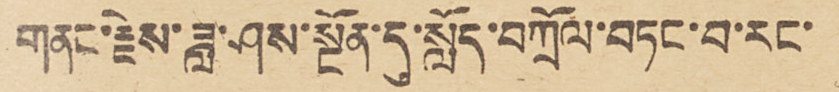གནང་རྗེས་ཟླ་ཤས་སྔོན་དུ་སློད་བཀྲོལ་བཏང་བ་རང་
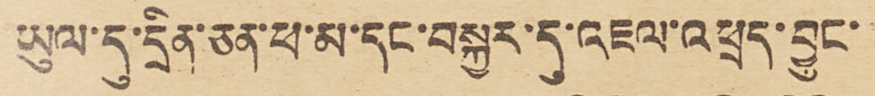ཡུལ་དུ་དྲིན་ཅན་ཕ་མ་དང་བསྐྱར་དུ་འཇལ་འཕྲད་བྱུང་
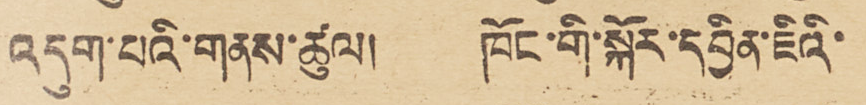འདུག་པའི་གནས་ཚུལ། ཁོང་གི་སྐོར་དབྱིན་ཇིའི་
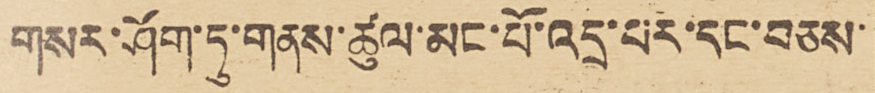གསར་ཤོག་ཏུ་གནས་ཚུལ་མང་པོ་འདྲ་པར་དང་བཅས་
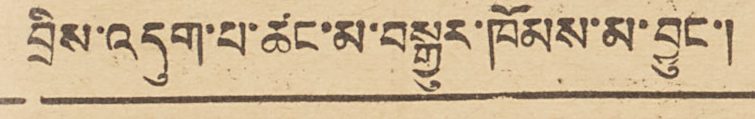བྲིས་འདུག་པ་ཚང་མ་བསྒྱུར་ཁོམས་མ་བྱུང་།
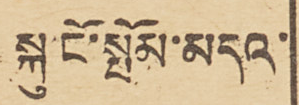སྐུ་ངོ་སྤོམ་མདའ་
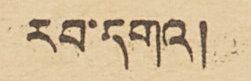རབ་དགའ།
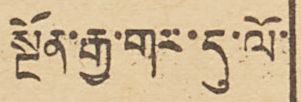སྔོན་རྒྱ་གར་དུ་ལོ་
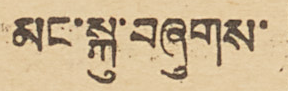མང་སྐུ་བཞུགས་
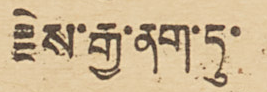རྗེས་རྒྱ་ནག་ཏུ་
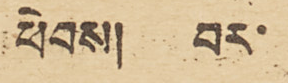ཕེབས།  བར་
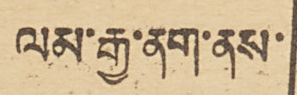ལམ་རྒྱ་ནག་ནས་
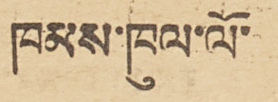ཁམས་ཁུལ་ལོ་
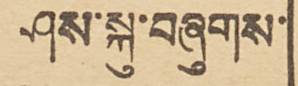ཤས་སྐུ་བཞུགས་
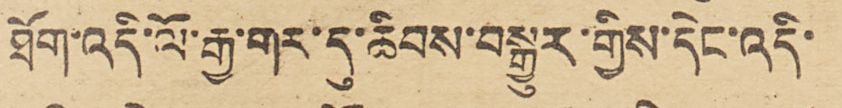ཐོག་འདི་ལོ་རྒྱ་གར་དུ་ཆིབས་བསྒྱུར་གྱིས་དེང་འདི་
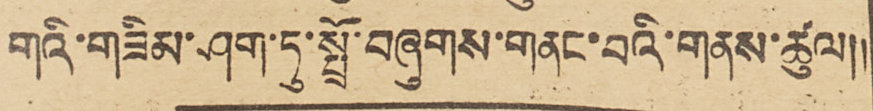གའི་གཟིམ་ཤག་ཏུ་སྤྲོ་བཞུགས་གནང་བའི་གནས་ཚུལ།།
